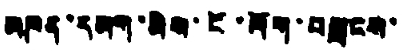མཁན་དམག་མིས་ངོ་ལོག་བསླངས་
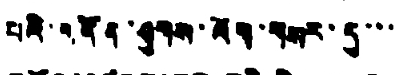པའི་གནོན་ཤུགས་ལོག་གསར་དུ་་་
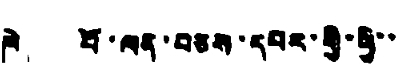ཁེ པོ་ལན་བཅས་དབར་གྱི་ཕྱི་་
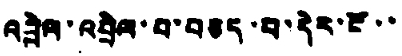འབྲེལ་འབྲེལ་བ་བཅད་པ་དེར་ངོ་་
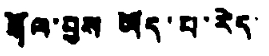རྒོལ་བྱས ཡོད་པ་རེད།
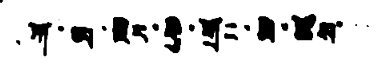ཀོ་ཡ་ཇེར་གྱི་གྲོང་མི་ཚོས་
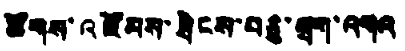ཚོགས་འཛོམས་ཐེངས་བཅུ་ཕྲག་འགའ
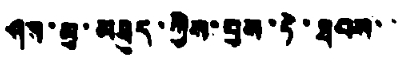ཤས་མུ་མཐུད་ཀྱིས་བྱས་ཏེ་ཐབས་་
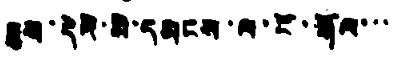ཇུས་དེའི་མི་དམངས་ལ་ངོ་རྒོལ་་་
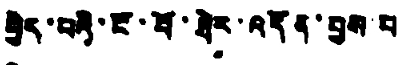བྱེད་པའི་ངོ་བོ་ཐེར་འདོན་བྱས་པ
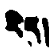རེད།
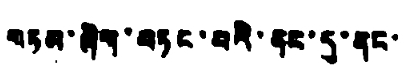བཏམ་ཞིག་བཏང་བའི་ནང་དུ་ནང་
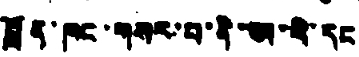བློན་ཁང་གསར་བ་ནི་ཨ་རི་དང
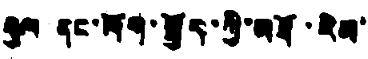རྒྱལ་ནང་ལོག་སྤྱོད་ཀྱི་མཐོ་རིམ་་
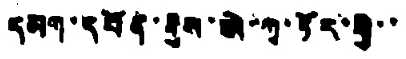དམག་དཔོན་རྒྱས་ཨེ་ཀྭ་ཏོར་གྱོ་་
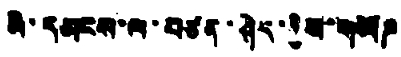མི་དམངས་ལ་བཙན་ཤེད་ཀྱིས་གཡོཌ
